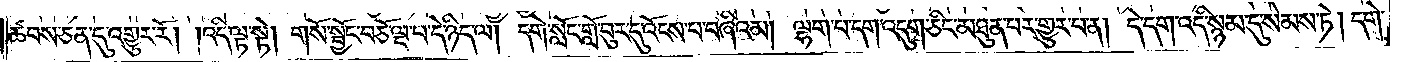ཚབས་ཅན་དུ་འགྱུར་རོ། །འདི་ལྟ་སྟེ། གསོ་སྦྱོང་བཅོ་ལྔ་པ་དེ་ཉིད་ལ། དགེ་སློང་གློ་བུར་དུ་འོངས་པ་བཞིའམ། ལྷག་པ་དག་འདུག་ཅིང་མཐུན་པར་གྱུར་པ་ན། དེ་དག་འདི་སྙམ་དུ་སེམས་ཏེ། དགེ་
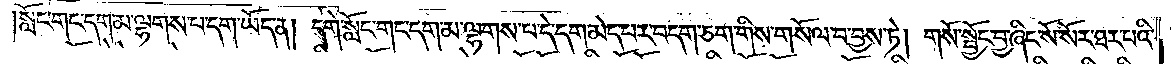སློང་གང་དག་མ་ལྷགས་པ་དག་ཡོད་ན། དགེ་སློང་གང་དག་མ་ལྷགས་པ་དེ་དག་མེད་པར་བདག་ཅག་གིས་གསོལ་བ་བྱས་ཏེ། གསོ་སྦྱོང་བྱ་ཞིང་སོ་སོར་ཐར་པའི་
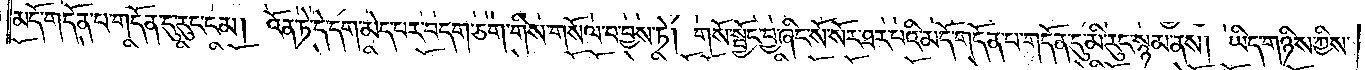མདོ་གདོན་པ་གདོན་དུ་རུང་ངམ། འོན་ཏེ་དེ་དག་མེད་པར་བདག་ཅག་གིས་གསོལ་བ་བྱས་ཏེ། གསོ་སྦྱོང་བྱ་ཞིང་སོ་སོར་ཐར་པའི་མདོ་གདོན་པ་གདོན་དུ་མི་རུང་སྙམ་ནས། ཡིད་གཉིས་ཀྱིས་
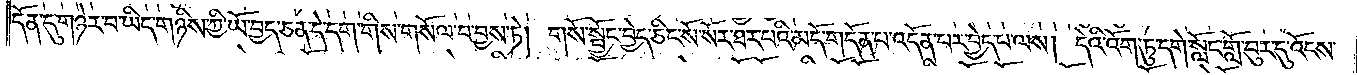དོན་དུ་གཉེར་བ་ཡིད་གཉིས་ཀྱི་ཡོ་བྱད་ཅན་དེ་དག་གིས་གསོལ་བ་བྱས་ཏེ། གསོ་སྦྱོང་བྱེད་ཅིང་སོ་སོར་ཐར་པའི་མདོ་གདོན་པ་འདོན་པར་བྱེད་པ་ལས། དེའི་འོག་ཏུ་དགེ་སློང་གློ་བུར་དུ་འོངས་
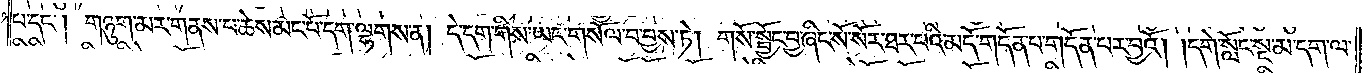པ་དང༌། གཉུག་མར་གནས་པ་ཆེས་མང་པོ་དག་ལྷགས་ན། དེ་དག་གིས་ཡང་གསོལ་བ་བྱས་ཏེ། གསོ་སྦྱོང་བྱ་ཞིང་སོ་སོར་ཐར་པའི་མདོ་གདོན་པ་གདོན་པར་བྱའོ། །དགེ་སློང་སྔ་མ་དག་ལ་
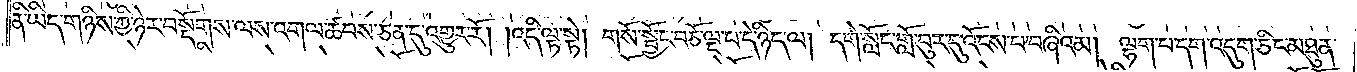ནི་ཡིད་གཉིས་ཀྱི་ཉེར་བསྡོགས་ལས་འགལ་ཚབས་ཅན་དུ་འགྱུར་རོ། །འདི་ལྟ་སྟེ། གསོ་སྦྱོང་བཅོ་ལྔ་པ་དེ་ཉིད་ལ། དགེ་སློང་གློ་བུར་དུ་འོངས་པ་བཞིའམ། ལྷག་པ་དག་འདུག་ཅིང་མཐུན་
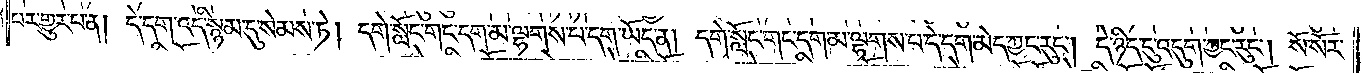པར་གྱུར་པ་ན། དེ་དག་འདི་སྙམ་དུ་སེམས་ཏེ། དགེ་སློང་གང་དག་མ་ལྷགས་པ་དག་ཡོད་ན། དགེ་སློང་གང་དག་མ་ལྷགས་པ་དེ་དག་མེད་ཀྱང་རུང༌། དེ་ཉིད་དུ་འདུག་ཀྱང་རུང༌། སོ་སོར་
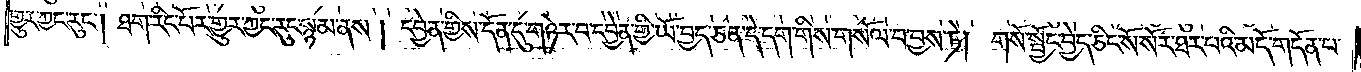གྱུར་ཀྱང་རུང༌། ཐག་རིང་པོར་གྱུར་ཀྱང་རུང་སྙམ་ནས། དབྱེན་གྱིས་དོན་དུ་གཉེར་བ་དབྱེན་གྱི་ཡོ་བྱད་ཅན་དེ་དག་གིས་གསོལ་བ་བྱས་ཏེ། གསོ་སྦྱོང་བྱེད་ཅིང་སོ་སོར་ཐར་པའི་མདོ་གདོན་པ་
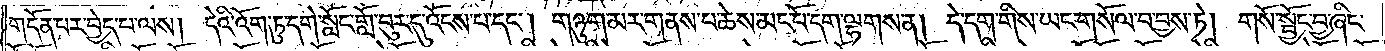གདོན་པར་བྱེད་པ་ལས། དེའི་འོག་ཏུ་དགེ་སློང་གློ་བུར་དུ་འོངས་པ་དང༌། གཉུག་མར་གནས་པ་ཆེས་མང་པོ་དག་ལྷགས་ན། དེ་དག་གིས་ཡང་གསོལ་བ་བྱས་ཏེ། གསོ་སྦྱོང་བྱ་ཞིང་
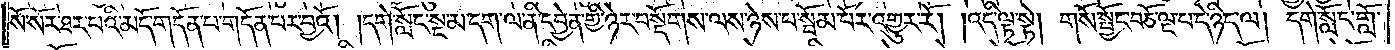སོ་སོར་ཐར་པའི་མདོ་གདོན་པ་གདོན་པར་བྱའོ། །དགེ་སློང་སྔ་མ་དག་ལ་ནི་དབྱེན་གྱི་ཉེར་བསྡོགས་ལས་ཉེས་པ་སྦོམ་པོར་འགྱུར་རོ། །འདི་ལྟ་སྟེ། གསོ་སྦྱོང་བཅོ་ལྔ་པ་དེ་ཉིད་ལ། དགེ་སློང་གློ་
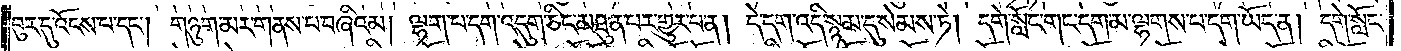བུར་དུ་འོངས་པ་དང༌། གཉུག་མར་གནས་པ་བཞིའམ། ལྷག་པ་དག་འདུག་ཅིང་མཐུན་པར་གྱུར་པ་ན། དེ་དག་འདི་སྙམ་དུ་སེམས་ཏེ། དགེ་སློང་གང་དག་མ་ལྷགས་པ་དག་ཡོད་ན། དགེ་སློང་
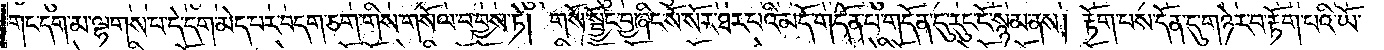གང་དག་མ་ལྷགས་པ་དེ་དག་མེད་པར་བདག་ཅག་གིས་གསོལ་བ་བྱས་ཏེ། གསོ་སྦྱོང་བྱ་ཞིང་སོ་སོར་ཐར་པའི་མདོ་གདོན་པ་གདོན་དུ་རུང་ངོ་སྙམ་ནས། རྟོག་པས་དོན་དུ་གཉེར་བ་རྟོག་པའི་ཡོ་
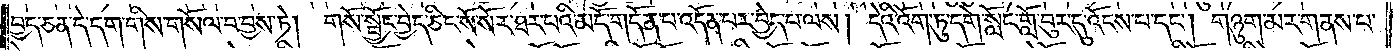བྱད་ཅན་དེ་དག་གིས་གསོལ་བ་བྱས་ཏེ། གསོ་སྦྱོང་བྱེད་ཅིང་སོ་སོར་ཐར་པའི་མདོ་གདོན་པ་འདོན་པར་བྱེད་པ་ལས། དེའི་འོག་ཏུ་དགེ་སློང་གློ་བུར་དུ་འོངས་པ་དང༌། གཉུག་མར་གནས་པ་
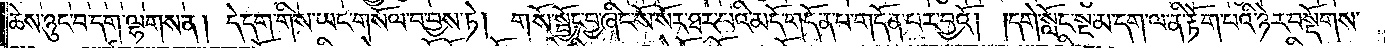ཆེས་ཉུང་བ་དག་ལྷགས་ན། དེ་དག་གིས་ཡང་གསོལ་བ་བྱས་ཏེ། གསོ་སྦྱོང་བྱ་ཞིང་སོ་སོར་ཐར་པའི་མདོ་གདོན་པ་གདོན་པར་བྱའོ། །དགེ་སློང་སྔ་མ་དག་ལ་ནི་རྟོག་པའི་ཉེར་བསྡོགས་
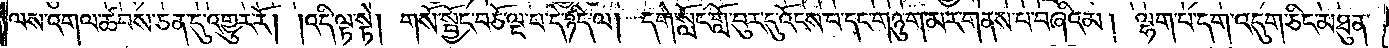ལས་འགལ་ཚབས་ཅན་དུ་འགྱུར་རོ། །འདི་ལྟ་སྟེ། གསོ་སྦྱོང་བཅོ་ལྔ་བ་དེ་ཉིད་ལ། དགེ་སློང་གློ་བུར་དུ་འོངས་པ་དང་གཉུག་མར་གནས་པ་བཞིའམ། ལྷག་པ་དག་འདུག་ཅིང་མཐུན་
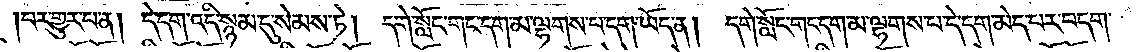བར་གྱུར་པ་ན། དེ་དག་འདི་སྙམ་དུ་སེམས་ཏེ། དགེ་སློང་གང་དག་མ་ལྷགས་པ་དག་ཡོད་ན། དགེ་སློང་གང་དག་མ་ལྷགས་པ་དེ་དག་མེད་པར་བདག་
